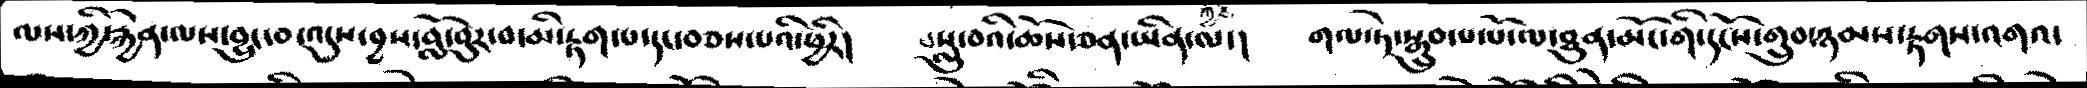ལས་ཀྱི་རྐྱེན་ལས་བྱུང་བ་འདུས་བྱས་བློ་བུར་བ་མི་རྟག་པ་དང་བཅས་པའི་ཕྱིར།  བསླུ་བའི་ཆོས་ཅན་ཡིན་ལ་།  གལ་ཏེ་སྒྲུབ་པ་པོ་ལ་ཐུན་མོང་གི་དངོས་གྲུབ་ཉམས་རྟགས་འགའ་
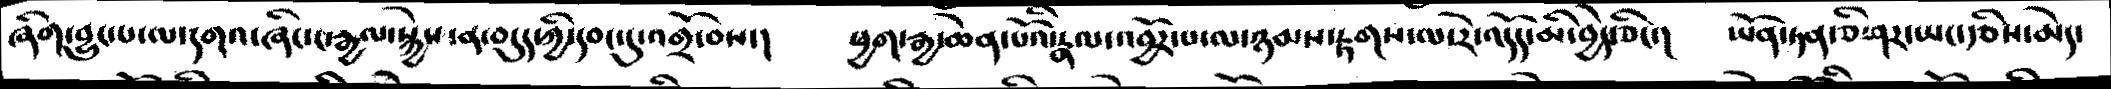ཞིག་བྱུང་པ་ལ་དགའ་ཞིང་ང་རྒྱལ་སྐྱེས་ན་བདུད་ཀྱི་དབང་དུ་འགྲོ་བས་།   ཕྱག་རྒྱ་ཆེན་པོའི་རྣལ་འབྱོར་པ་ལ་ཉམས་རྟགས་་རེ་འདོད་མི་བྱེད་ཅིང་།  ཡོན་ཏན་ཅི་ཤར་ཡང་རྩིས་མེད་
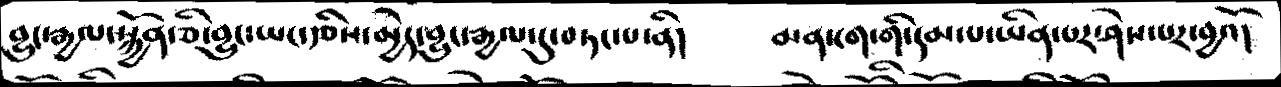བྱུང་རྒྱལ་སྐྱོན་ཅི་བྱུང་ཡང་རྩིས་མྱེད་བྱུང་རྒྱལ་དུ་བཏང་པ་ནི།    མན་ངག་གི་དམ་པ་ཡིན་པར་ཤེས་པར་བྱའོ།
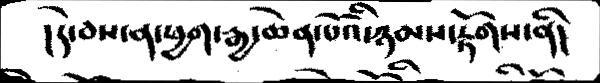། དེ་བས་ན་ཕྱག་རྒྱ་ཆེན་པོའི་ཉམས་རྟོགས་ནི།
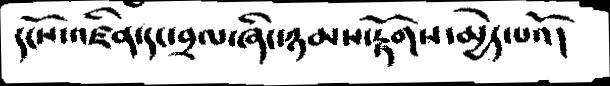དངོས་འཛིན་དང་བྲལ་ཞིང་ཉམས་རྟོགས་མྱེད་པའོ།
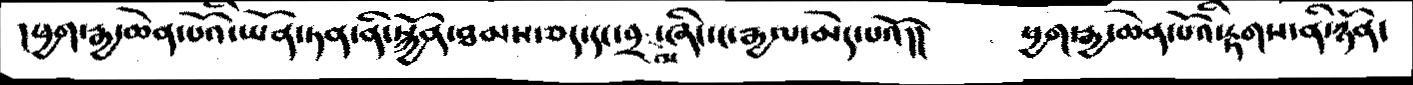།ཕྱག་རྒྱ་ཆེན་པོའི་ཡོན་ཏན་ནི་སྐྱོན་ཐམས་ཅད་དང་བྲལ་ཞིང་ང་རྒྱལ་མེད་པའོ།།    ཕྱག་རྒྱ་ཆེན་པོའི་རྟགས་ནི་ཉོན་
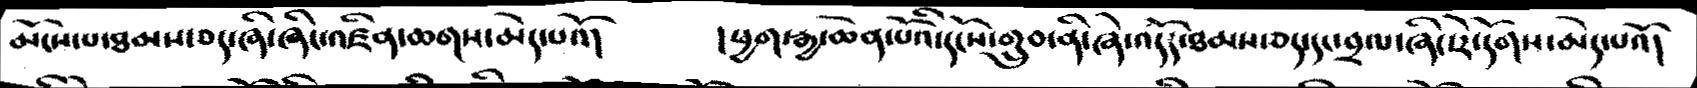མོངས་པ་ཐམས་ཅད་ཞི་ཞིང་འཛིན་ཆགས་མེད་པའོ།      །ཕྱག་རྒྱ་ཆེན་པོའི་དངོས་གྲུབ་ནི་ཞེ་འདོད་ཐམས་ཅད་དང་བྲལ་ཞིང་རེ་དོགས་མེད་པའོ།
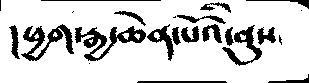། ཕྱག་རྒྱ་ཆེན་པོའི་བུས་
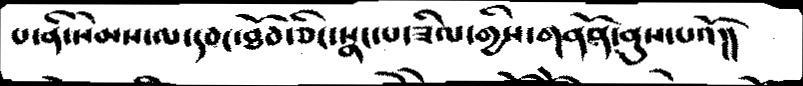པ་ནི་སེམས་ལ་དབང་ཐོབ་ཅིང་སྣང་པ་ཟིལ་གྱིས་གནོན་ནུས་པའོ།།
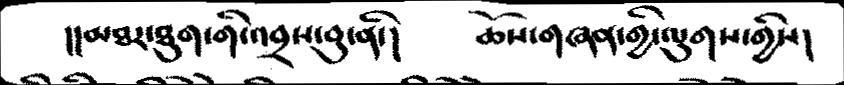།།མཐར་ཐུག་གི་འབྲས་བུ་ནི་།       ཆོས་གཞན་གྱི་ལུགས་གྱིས།
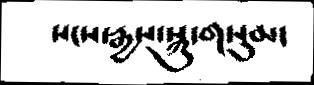སངས་རྒྱས་སྐུ་གསུམ་
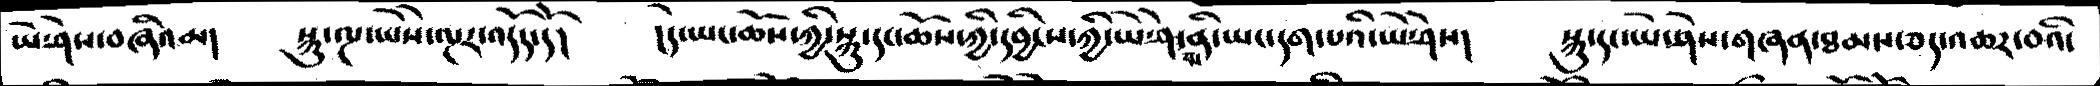ཡེ་ཤེས་བཞིའམ།    སྐུ་ལྔ་ཡཻས་ལྔར་འདོད་དོ།    །དེ་ཡང་ཆོས་ཀྱི་སྐུ་དང་ཆོས་ཀྱི་དབྱིངས་ཀྱི་ཡེ་ཤེས་ནི་ཡང་དག་པའི་ཡེ་ཤེས།   སྐུ་དང་ཡེ་ཤེས་གཞན་ཐམས་ཅད་འཆར་བའི་
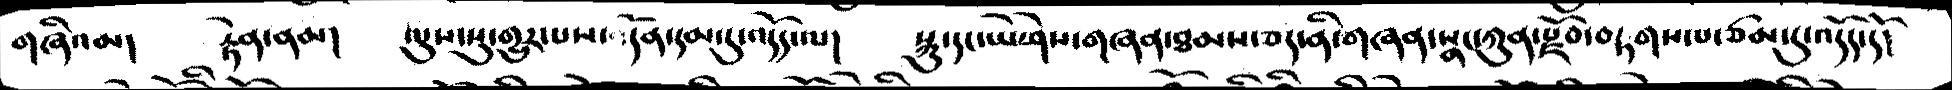གཞིའམ།    རྟེན་ནམ།  ལུས་སུ་གྱུར་པས་དོམ་དམ་དུ་འདོད་ལ།   སྐུ་དང་ཡེ་ཤེས་གཞན་ཐམས་ཅད་ནི་གཞན་སྣང་ཀུན་རྫོབ་བཏགས་པ་ཙམ་དུ་འདོད་དོ།
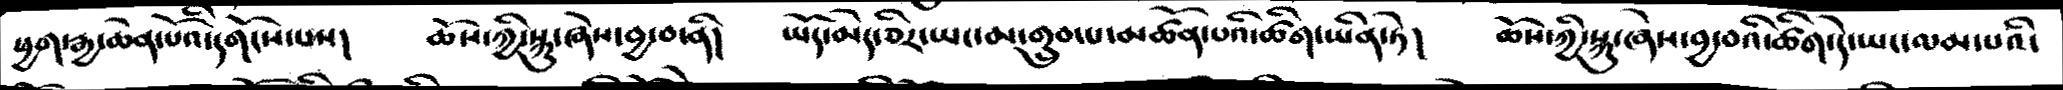ཕྱག་རྒྱ་ཆེན་པོའི་དགོངས་པས།   ཆོས་ཀྱི་སྐུ་ཞེས་བྱ་བ་ནི།   ཡོད་མེད་ཅིར་ཡང་མ་གྲུབ་པ་མཚོན་པའི་ཚིག་ཡིན་ཏེ།  ཆོས་ཀྱི་སྐུ་ཞེས་བྱ་བའི་ཚིག་དེ་ཡང་་ལམ་པའི་
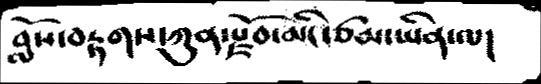བློས་བརྟགས་ཀུན་རྫོབ་མིང་ཙམ་ཡིན་ལ།
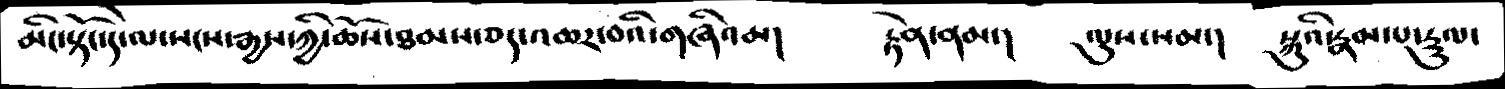མིང་སྟོང་དེ་ལ་སངས་རྒྱས་ཀྱི་ཆོས་ཐམས་ཅད་འཆར་བའི་གཞིའམ།      རྟེན་ནམ་།   ལུས་སམ་།    སྐུའི་རྣམ་པ་རྟུལ་
